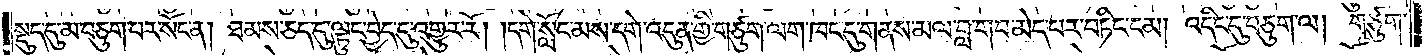སྡུད་དུ་མ་བཅུག་པར་སོང་ན། ཐམས་ཅད་དུ་ལྟུང་བྱེད་དུ་འགྱུར་རོ། །དགེ་སློང་མས་དགེ་འདུན་གྱི་གཙུག་ལག་ཁང་དུ་གནས་མལ་བླ་གབ་མེད་པར་བཏིང་ངམ། འདིང་དུ་བཅུག་ལ། གཙུག་
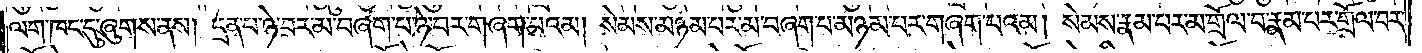ལག་ཁང་དུ་ཞུགས་ནས། དྲན་པ་ཉེ་བར་མ་བཞག་པ་ཉེ་བར་གཞག་པའམ། སེམས་མཉམ་པར་མ་བཞག་པ་མཉམ་པར་གཞག་པའམ། སེམས་རྣམ་པར་མ་གྲོལ་བ་རྣམ་པར་གྲོལ་བར་
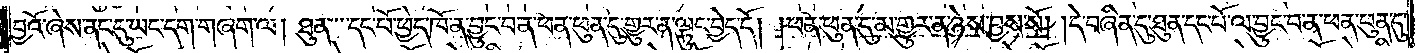བྱའོ་ཞེས་ནང་དུ་ཡང་དག་གཞག་ལ། ཐུན་དང་པོ་ཕྱེད་ཁོ་ན་བྱུང་བ་ན་ཕན་ཕུན་དུ་གྱུར་ན་ལྟུང་བྱེད་དོ། །ཕན་ཕུན་དུ་མ་གྱུར་ན་ཉེས་བྱས་སོ། །དེ་བཞིན་དུ་ཐུན་དང་པོ་ལ་བྱུང་བ་ན་ཕན་ཕུན་དུ་
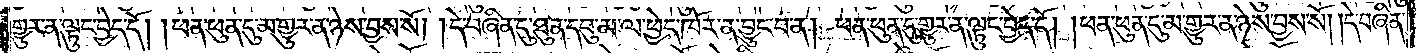གྱུར་ན་ལྟུང་བྱེད་དོ། །ཕན་ཕུན་དུ་མ་གྱུར་ན་ཉེས་བྱས་སོ། །དེ་བཞིན་དུ་ཐུན་དབུ་མ་ལ་ཕྱེད་ཁོར་ན་བྱུང་བ་ན། ཕན་ཕུན་དུ་གྱུར་ན་ལྟུང་བྱེད་དོ། །ཕན་ཕུན་དུ་མ་གྱུར་ན་ཉེས་བྱས་སོ། །དེ་བཞིན་
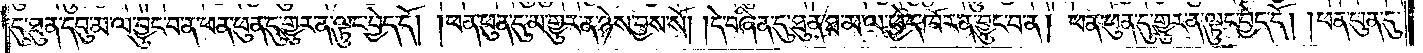དུ་ཐུན་དབུ་མ་ལ་བྱུང་བ་ན་ཕན་ཕུན་དུ་གྱུར་ན་ལྟུང་བྱེད་དོ། །ཕན་ཕུན་དུ་མ་གྱུར་ན་ཉེས་བྱས་སོ། །དེ་བཞིན་དུ་ཐུན་དུ་ཐ་མ་ལ་ཕྱེད་ཁོར་ན་བྱུང་བ་ན། ཕན་ཕུན་དུ་གྱུར་ན་ལྟུང་བྱེད་དོ། །ཕན་ཕུན་དུ་
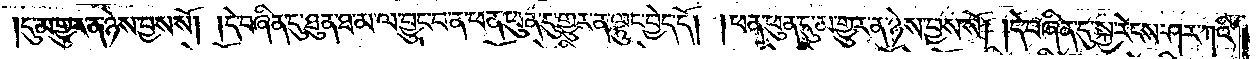དུ་མ་གྱུར་ན་ཉེས་བྱས་སོ། །དེ་བཞིན་དུ་ཐུན་ཐ་མ་ལ་བྱུང་བ་ན་ཕན་ཕུན་དུ་གྱུར་ན་ལྟུང་བྱེད་དོ། །ཕན་ཕུན་དུ་མ་གྱུར་ན་ཉེས་བྱས་སོ། །དེ་བཞིན་དུ་སྐྱ་རེངས་ཤར་ཀའི་
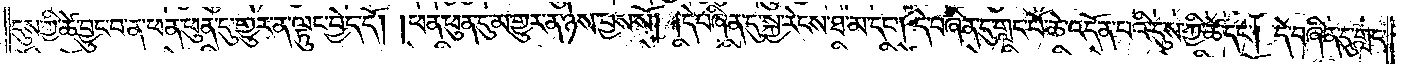དུས་ཀྱི་ཚེ་བྱུང་བ་ན་ཕན་ཕུན་དུ་གྱུར་ན་ལྟུང་བྱེད་དོ། །ཕན་ཕུན་དུ་མ་གྱུར་ན་ཉེས་བྱས་སོ། །དེ་བཞིན་དུ་སྐྱ་རེངས་ཐ་མ་དང༌། དེ་བཞིན་དུ་གླང་པོ་ཆེ་འདོན་པའི་དུས་ཀྱི་ཚེ་དང༌། དེ་བཞིན་དུ་གླང་
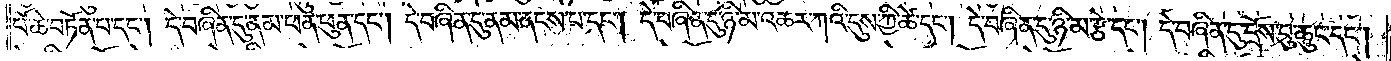པོ་ཆེ་བཏོན་པ་དང༌། དེ་བཞིན་དུ་ནམ་ཕན་ཕུན་དང༌། དེ་བཞིན་དུ་ནམ་ནངས་པ་དང༌། དེ་བཞིན་དུ་ཉི་མ་འཆར་ཀའི་དུས་ཀྱི་ཚེ་དང༌། དེ་བཞིན་དུ་ཉི་མ་རྩེ་དང༌། དེ་བཞིན་དུ་དྲོས་བུ་ཆུང་དང༌།
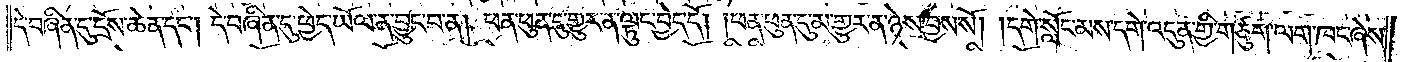དེ་བཞིན་དུ་དྲོས་ཆེན་དང༌། དེ་བཞིན་དུ་ཕྱེད་ཡོལ་ན་བྱུང་བ་ན། ཕན་ཕུན་དུ་གྱུར་ན་ལྟུང་བྱེད་དོ། །ཕན་ཕུན་དུ་མ་གྱུར་ན་ཉེས་བྱས་སོ། །དགེ་སློང་མས་དགེ་འདུན་གྱི་གཙུག་ལག་ཁང་ཞེས་
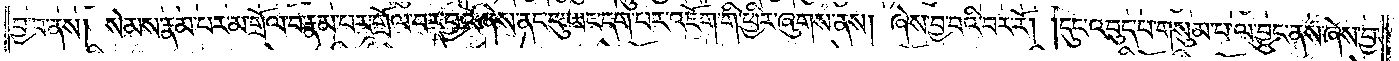བྱ་བ་ནས། སེམས་རྣམ་པར་མ་གྲོལ་བ་རྣམ་པར་གྲོལ་བར་བྱའོ་ཞེས་ནང་དུ་ཡང་དག་པར་འཇོག་གི་ཕྱིར་ཞུགས་ནས། ཞེས་བྱ་བའི་བར་རོ། །དུང་འབུད་པ་གསུམ་པ་ལ་བྱུང་ནས་ཞེས་བྱ་
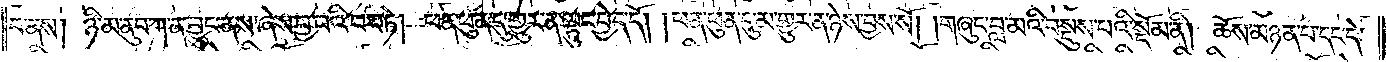བ་ནས། ཉི་མ་ནུབ་ཀ་ན་བྱུང་ནས་ཞེས་བྱ་བའི་བར་ཏེ། ཕན་ཕུན་དུ་གྱུར་ན་ལྟུང་བྱེད་དོ། །ཕན་ཕུན་དུ་མ་གྱུར་ན་ཉེས་བྱས་སོ། །གཞུང་བླ་མའི་བསྡུས་པའི་སྡོམ་ནི། ཆོས་མཉན་པ་དང་དེ་
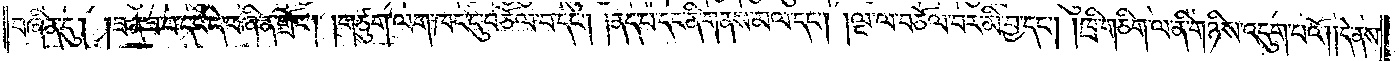བཞིན་དུ། །ཟན་ཟ་བ་དང་དེ་བཞིན་གྲོང༌། །གཙུག་ལག་ཁང་དུ་བཅོལ་བ་དང༌། །ནད་པ་དང་ནི་གནས་མལ་དང༌། །ལྔ་ལ་བཅོལ་བར་མི་བྱ་དང༌། །ཁྲི་གཅིག་ལ་ནི་གཉིས་འདུག་པའོ། །དེ་ནས་
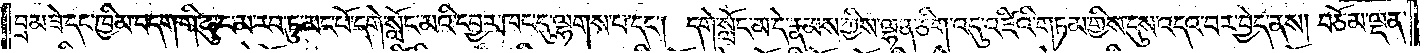བྲམ་ཟེ་དང་ཁྱིམ་བདག་གི་ཆུང་མ་རབ་ཏུ་མང་པོ་དགེ་སློང་མའི་དབྱར་ཁང་དུ་ལྷགས་པ་དང༌། དགེ་སློང་མ་དེ་རྣམས་ཀྱིས་ལྷན་ཅིག་འདུ་འཛིའི་གཏམ་གྱིས་དུས་འདའ་བར་བྱེད་ནས། བཅོམ་ལྡན་
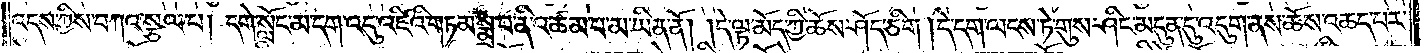འདས་ཀྱིས་བཀའ་སྩལ་པ། དགེ་སློང་མ་དག་འདུ་འཛིའི་གཏམ་སྨྲ་བ་ནི་འཚམ་པ་མ་ཡིན་ནོ། །དེ་ལྟ་མོད་ཀྱི་ཆོས་ཤོད་ཅིག །དེ་དག་ལངས་ཏེ་གུས་ཤིང་མདུན་དུ་འདུག་ནས་ཆོས་འཆད་པར་
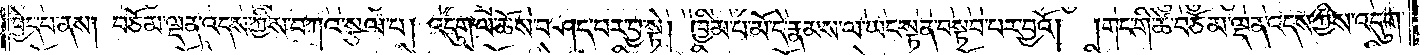བྱེད་པ་ནས། བཅོམ་ལྡན་འདས་ཀྱིས་བཀའ་སྩལ་པ། འདུག་ལ་ཆོས་བཤད་པར་བྱ་སྟེ། ཁྱིམ་པ་མོ་དེ་རྣམས་ལ་ཡང་སྟན་བསྟབ་པར་བྱའོ། །གང་གི་ཚེ་བཅོམ་ལྡན་འདས་ཀྱིས་འདུག་
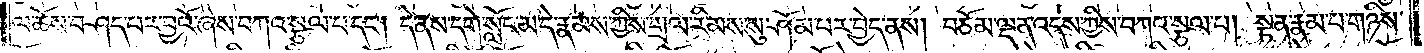ལ་ཆོས་བཤད་པར་བྱའོ་ཞེས་བཀའ་སྩལ་པ་དང༌། དེ་ནས་དགེ་སློང་མ་དེ་རྣམས་ཀྱིས་གྲལ་རིམས་སུ་ཤོམ་པར་བྱེད་ནས། བཅོམ་ལྡན་འདས་ཀྱིས་བཀའ་སྩལ་པ། སྟན་རྣམ་པ་གཉིས་
